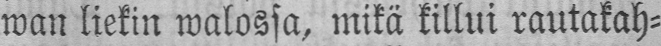wan liekin walossa, mikä killui rautakah-
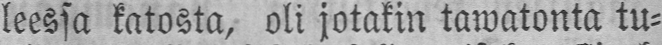leessa katosta, oli jotakin tawatonta tu-
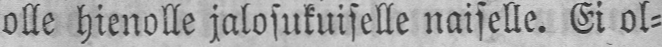olle hienolle jalosukuiselle naiselle. Ei ol-
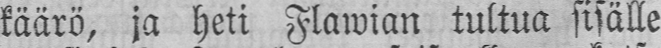käärö, ja heti Flawian tultua sisälle
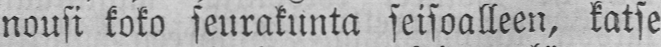nousi koko seurakunta seisoalleen, katse
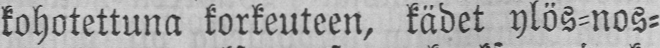kohotettuna korkeuteen, kädet ylös-nos-
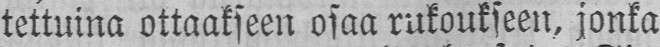tettuina ottaakseen osaa rukoukseen, jonka
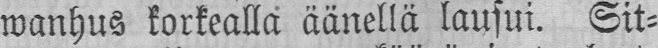wanhus korkealla äänellä lausui. Sit-
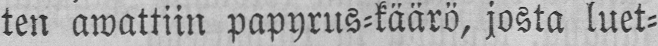ten awattiin papyrus-käärö, josta luet-
